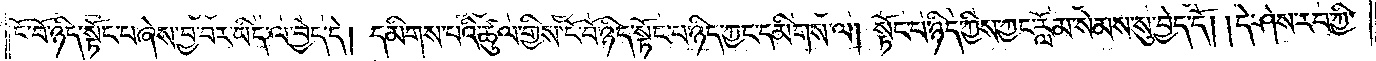ངོ་བོ་ཉིད་སྟོང་པ་ཞེས་བྱ་བར་ཡིད་ལ་བྱེད་དེ། དམིགས་པའི་ཚུལ་གྱིས་ངོ་བོ་ཉིད་སྟོང་པ་ཉིད་ཀྱང་དམིགས་ལ། སྟོང་པ་ཉིད་ཀྱིས་ཀྱང་རློམ་སེམས་སུ་བྱེད་དོ། །དེ་ཤེས་རབ་ཀྱི་
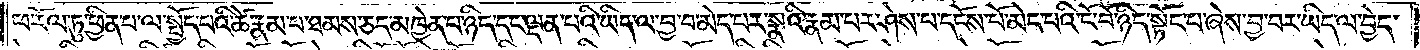ཕ་རོལ་ཏུ་ཕྱིན་པ་ལ་སྤྱོད་པའི་ཚེ་རྣམ་པ་ཐམས་ཅད་མཁྱེན་པ་ཉིད་དང་ལྡན་པའི་ཡིད་ལ་བྱ་བ་མེད་པར་སྣའི་རྣམ་པར་ཤེས་པ་དངོས་པོ་མེད་པའི་ངོ་བོ་ཉིད་སྟོང་པ་ཞེས་བྱ་བར་ཡིད་ལ་བྱེད་
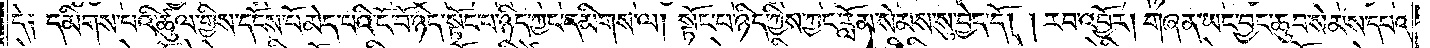དེ༑ དམིགས་པའི་ཚུལ་གྱིས་དངོས་པོ་མེད་པའི་ངོ་བོ་ཉིད་སྟོང་པ་ཉིད་ཀྱང་དམིགས་ལ། སྟོང་པ་ཉིད་ཀྱིས་ཀྱང་རློམ་སེམས་སུ་བྱེད་དོ། །རབ་འབྱོར། གཞན་ཡང་བྱང་ཆུབ་སེམས་དཔའ་
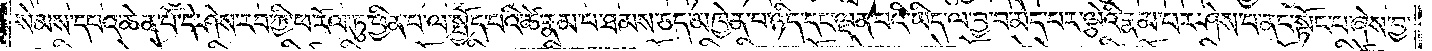སེམས་དཔའ་ཆེན་པོ་དེ་ཤེས་རབ་ཀྱི་ཕ་རོལ་ཏུ་ཕྱིན་པ་ལ་སྤྱོད་པའི་ཚེ་རྣམ་པ་ཐམས་ཅད་མཁྱེན་པ་ཉིད་དང་ལྡན་པའི་ཡིད་ལ་བྱ་བ་མེད་པར་ལྕེའི་རྣམ་པར་ཤེས་པ་ནང་སྟོང་པ་ཞེས་བྱ་
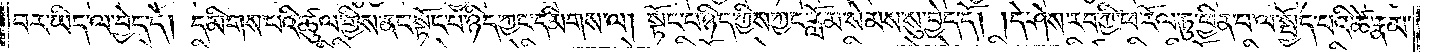བར་ཡིད་ལ་བྱེད་དེ། དམིགས་པའི་ཚུལ་གྱིས་ནང་སྟོང་པ་ཉིད་ཀྱང་དམིགས་ལ། སྟོང་པ་ཉིད་ཀྱིས་ཀྱང་རློམ་སེམས་སུ་བྱེད་དོ། །དེ་ཤེས་རབ་ཀྱི་ཕ་རོལ་ཏུ་ཕྱིན་པ་ལ་སྤྱོད་པའི་ཚེ་རྣམ་
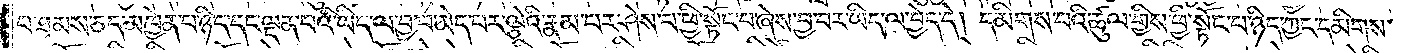པ་ཐམས་ཅད་མཁྱེན་པ་ཉིད་དང་ལྡན་པའི་ཡིད་ལ་བྱ་བ་མེད་པར་ལྕེའི་རྣམ་པར་ཤེས་པ་ཕྱི་སྟོང་པ་ཞེས་བྱ་བར་ཡིད་ལ་བྱེད་དེ། དམིགས་པའི་ཚུལ་གྱིས་ཕྱི་སྟོང་པ་ཉིད་ཀྱང་དམིགས་
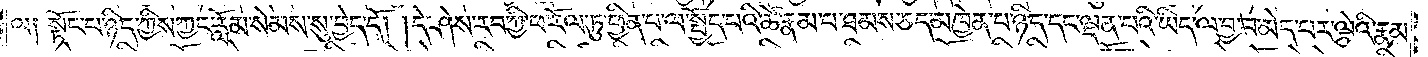ལ༑ སྟོང་པ་ཉིད་ཀྱིས་ཀྱང་རློམ་སེམས་སུ་བྱེད་དོ། །དེ་ཤེས་རབ་ཀྱི་ཕ་རོལ་ཏུ་ཕྱིན་པ་ལ་སྤྱོད་པའི་ཚེ་རྣམ་པ་ཐམས་ཅད་མཁྱེན་པ་ཉིད་དང་ལྡན་པའི་ཡིད་ལ་བྱ་བ་མེད་པར་ལྕེའི་རྣམ་
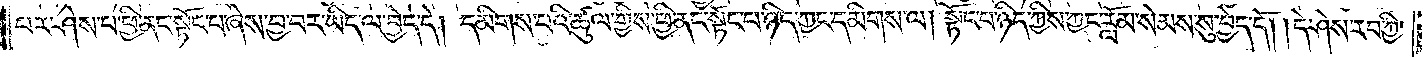པར་ཤེས་པ་ཕྱི་ནང་སྟོང་པ་ཞེས་བྱ་བར་ཡིད་ལ་བྱེད་དེ། དམིགས་པའི་ཚུལ་གྱིས་ཕྱི་ནང་སྟོང་པ་ཉིད་ཀྱང་དམིགས་ལ། སྟོང་པ་ཉིད་ཀྱིས་ཀྱང་རློམ་སེམས་སུ་བྱེད་དོ། །དེ་ཤེས་རབ་ཀྱི་
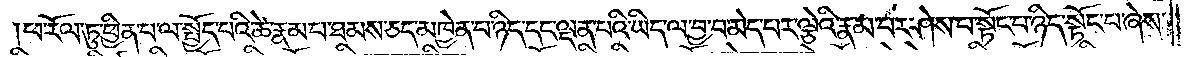ཕ་རོལ་ཏུ་ཕྱིན་པ་ལ་སྤྱོད་པའི་ཚེ་རྣམ་པ་ཐམས་ཅད་མཁྱེན་པ་ཉིད་དང་ལྡན་པའི་ཡིད་ལ་བྱ་བ་མེད་པར་ལྕེའི་རྣམ་པར་ཤེས་པ་སྟོང་པ་ཉིད་སྟོང་པ་ཞེས་
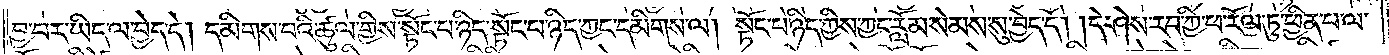བྱ་བར་ཡིད་ལ་བྱེད་དེ། དམིགས་པའི་ཚུལ་གྱིས་སྟོང་པ་ཉིད་སྟོང་པ་ཉིད་ཀྱང་དམིགས་ལ། སྟོང་པ་ཉིད་ཀྱིས་ཀྱང་རློམ་སེམས་སུ་བྱེད་དོ། །དེ་ཤེས་རབ་ཀྱི་ཕ་རོལ་ཏུ་ཕྱིན་པ་ལ་
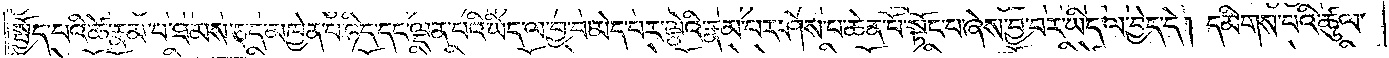སྤྱོད་པའི་ཚེ་རྣམ་པ་ཐམས་ཅད་མཁྱེན་པ་ཉིད་དང་ལྡན་པའི་ཡིད་ལ་བྱ་བ་མེད་པར་ལྕེའི་རྣམ་པར་ཤེས་པ་ཆེན་པོ་སྟོང་པ་ཞེས་བྱ་བར་ཡིད་ལ་བྱེད་དེ། དམིགས་པའི་ཚུལ་
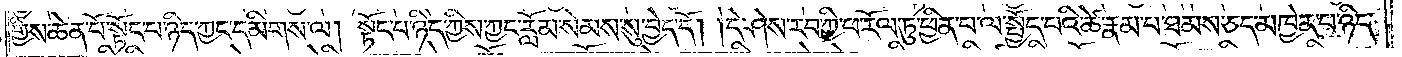གྱིས་ཆེན་པོ་སྟོང་པ་ཉིད་ཀྱང་དམིགས་ལ། སྟོང་པ་ཉིད་ཀྱིས་ཀྱང་རློམ་སེམས་སུ་བྱེད་དོ། །དེ་ཤེས་རབ་ཀྱི་ཕ་རོལ་ཏུ་ཕྱིན་པ་ལ་སྤྱོད་པའི་ཚེ་རྣམ་པ་ཐམས་ཅད་མཁྱེན་པ་ཉིད་
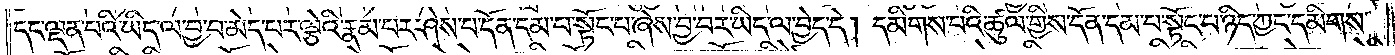དང་ལྡན་པའི་ཡིད་ལ་བྱ་བ་མེད་པར་ལྕེའི་རྣམ་པར་ཤེས་པ་དོན་དམ་པ་སྟོང་པ་ཞེས་བྱ་བར་ཡིད་ལ་བྱེད་དེ། དམིགས་པའི་ཚུལ་གྱིས་དོན་དམ་པ་སྟོང་པ་ཉིད་ཀྱང་དམིགས་
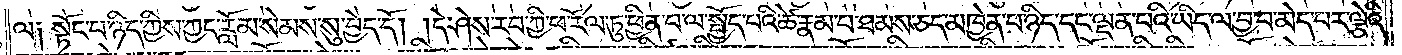ལ༑ སྟོང་པ་ཉིད་ཀྱིས་ཀྱང་རློམ་སེམས་སུ་བྱེད་དོ། །དེ་ཤེས་རབ་ཀྱི་ཕ་རོལ་ཏུ་ཕྱིན་པ་ལ་སྤྱོད་པའི་ཚེ་རྣམ་པ་ཐམས་ཅད་མཁྱེན་པ་ཉིད་དང་ལྡན་པའི་ཡིད་ལ་བྱ་བ་མེད་པར་ལྕེའི་
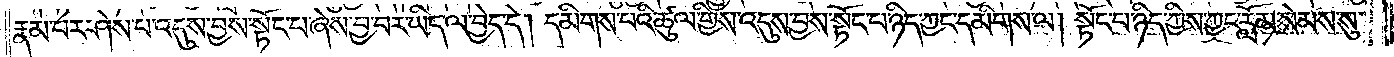རྣམ་པར་ཤེས་པ་འདུས་བྱས་སྟོང་པ་ཞེས་བྱ་བར་ཡིད་ལ་བྱེད་དེ། དམིགས་པའི་ཚུལ་གྱིས་འདུས་བྱས་སྟོང་པ་ཉིད་ཀྱང་དམིགས་ལ། སྟོང་པ་ཉིད་ཀྱིས་ཀྱང་རློམ་སེམས་སུ་
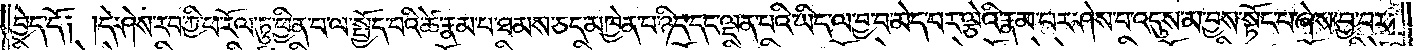བྱེད་དོ། །དེ་ཤེས་རབ་ཀྱི་ཕ་རོལ་ཏུ་ཕྱིན་པ་ལ་སྤྱོད་པའི་ཚེ་རྣམ་པ་ཐམས་ཅད་མཁྱེན་པ་ཉིད་དང་ལྡན་པའི་ཡིད་ལ་བྱ་བ་མེད་པར་ལྕེའི་རྣམ་པར་ཤེས་པ་འདུས་མ་བྱས་སྟོང་པ་ཞེས་བྱ་བར་
